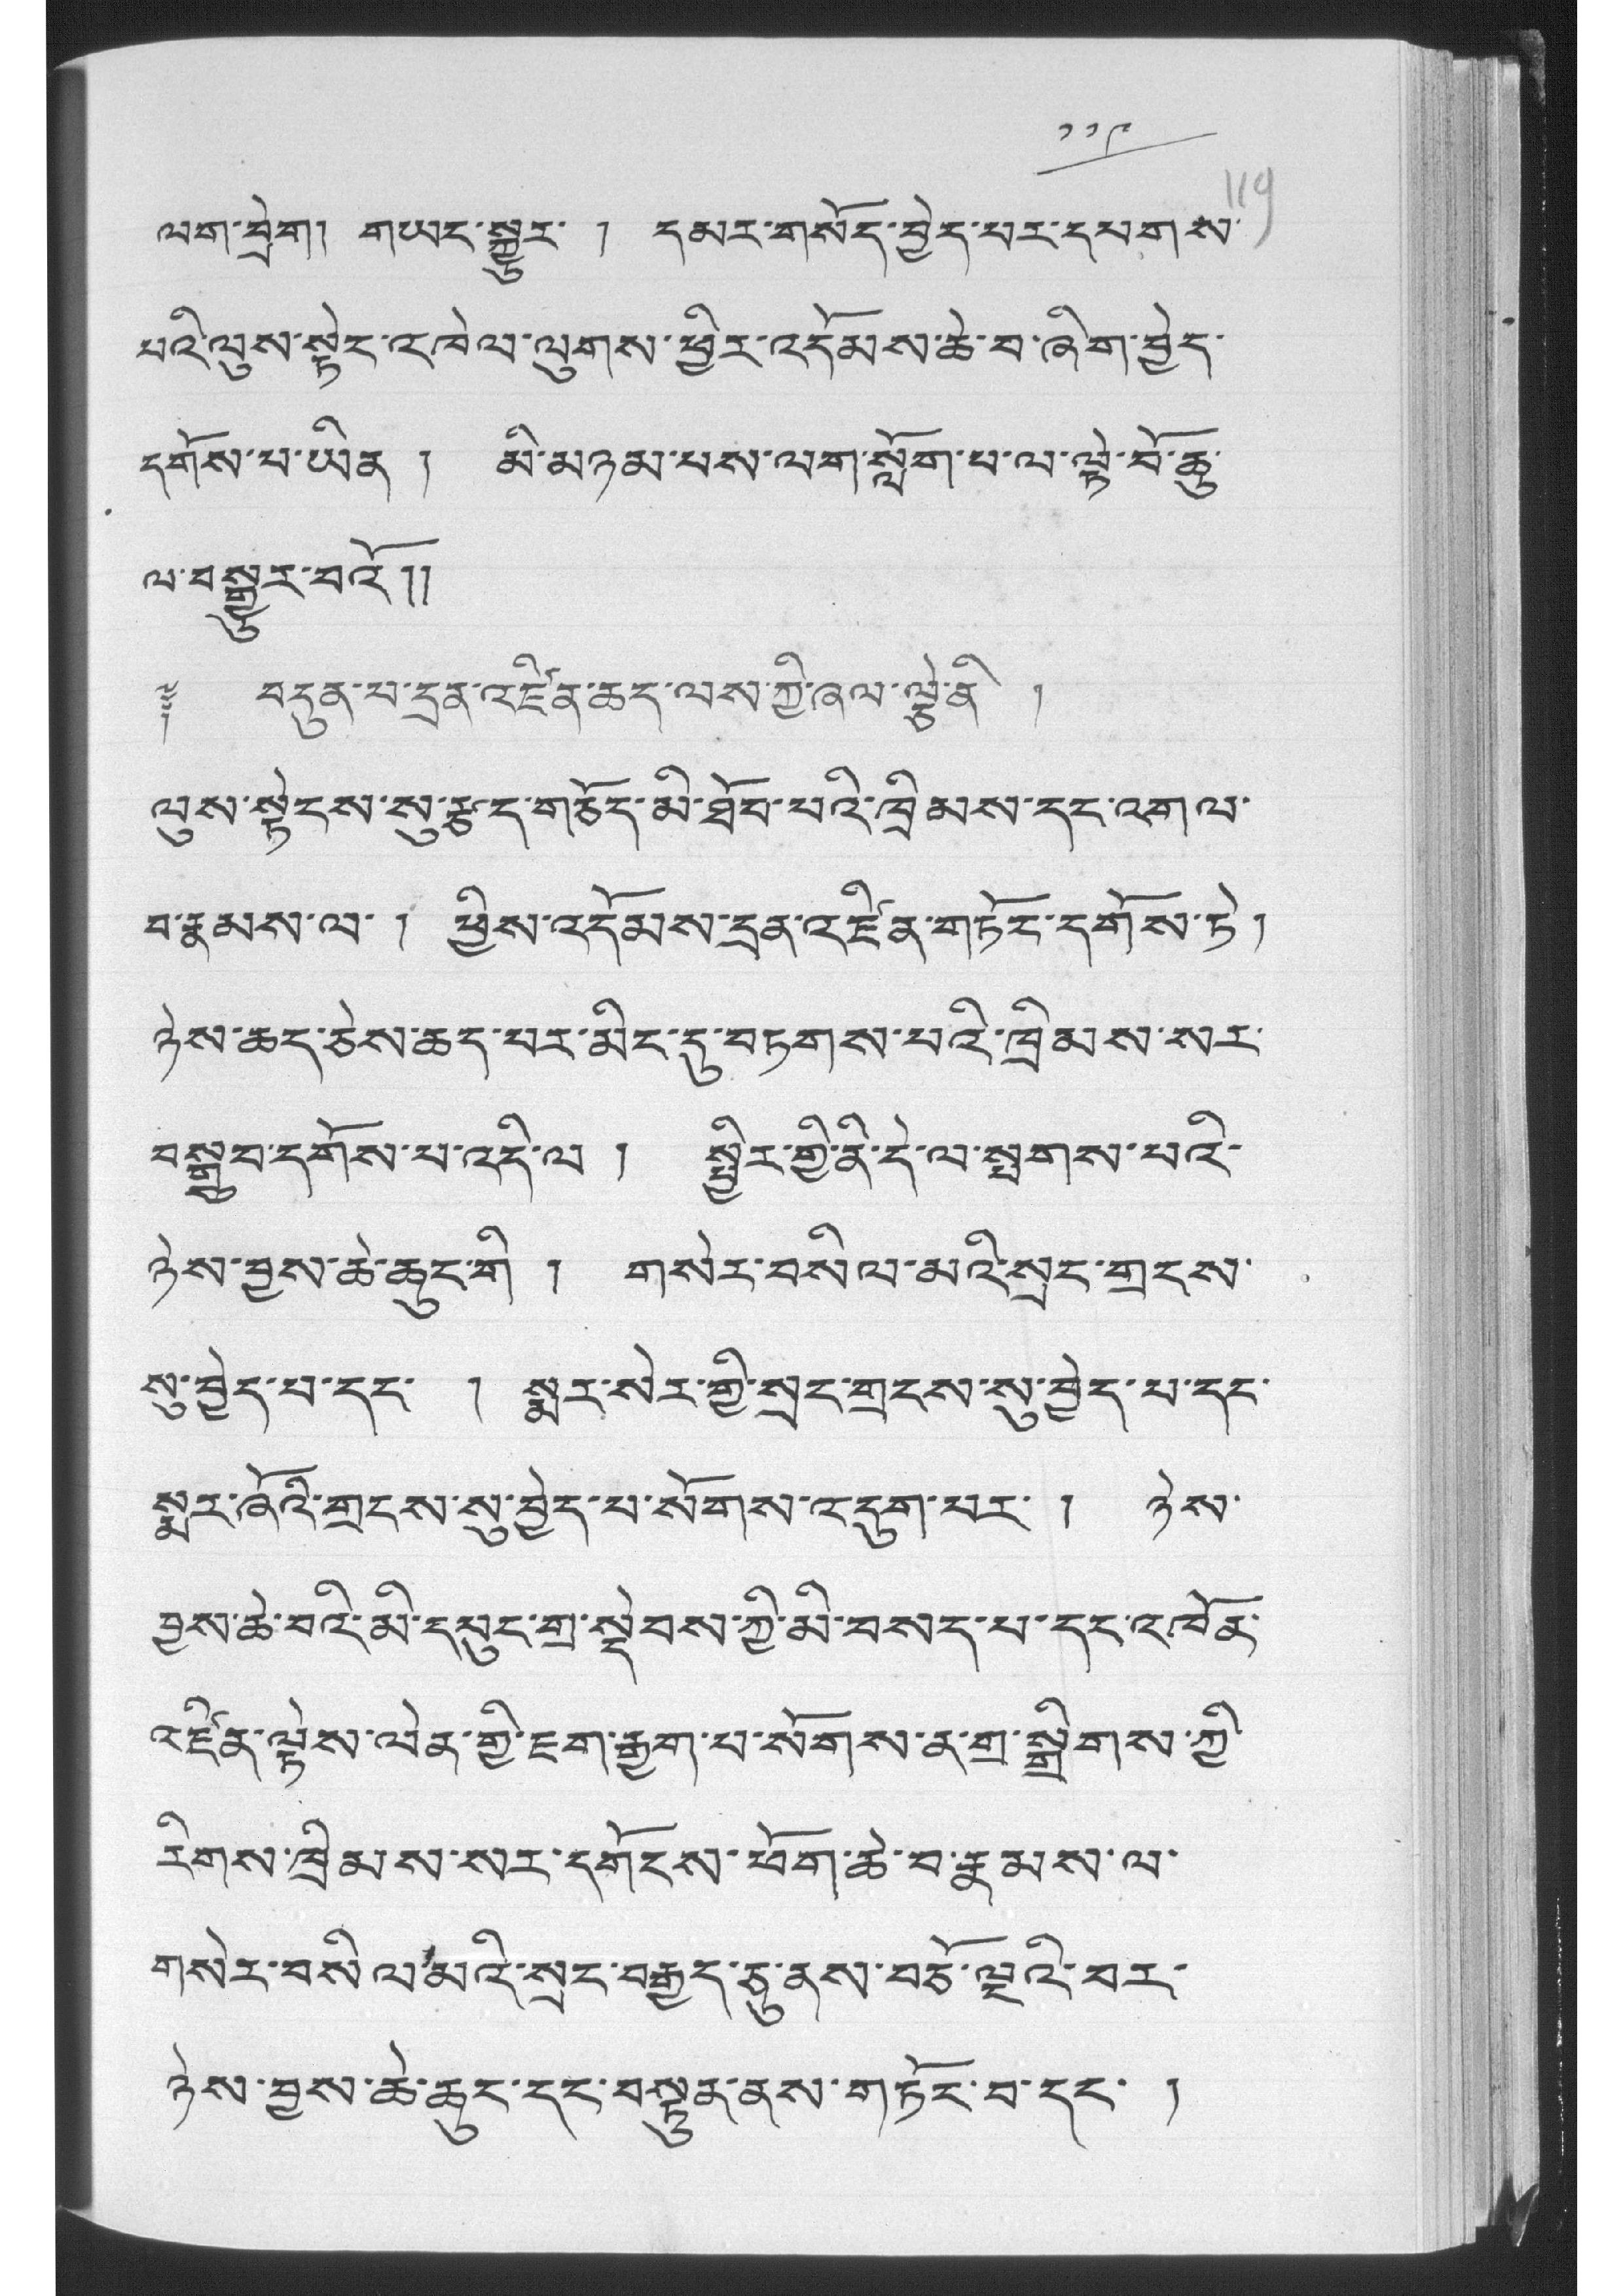༡༡༩
ལག་བྲེག། གཡང་སྒྱུར་ ། དམར་གསོད་བྱེད་པར་དཔགས་
པའི་ལུས་སྟེང་འཁེལ་ལུགས་ཕྱིར་འདོམས་ཆེ་བ་ཞིག་བྱེད་
དགོས་པ་ཡིན ། མི་མཉམ་པས་ལག་སློག་པ་ལ་ལྟེ་བོ་ཆུ་
ལ་བསྒྱུར་བའོ།།
༈ བདུན་པ་དྲན་འཛིན་ཆད་ལས་ཀྱི་ཞལ་ལྕེ་ནི །
ལུས་སྟེངས་སུ་རྩད་གཅོད་མི་ཐོབ་པའི་ཁྲིམས་དང་འགལ་
བ་རྣམས་ལ་ ། ཕྱིས་འདོམས་དྲན་འཛིན་གཏོར་དགོས་ཏེ །
ཉེས་ཆད་ཅེས་ཆད་བར་མིང་དུ་བཏགས་པའི་ཁྲིམས་སར་
བསྒྲུབ་དགོས་པ་འདི་ལ ། སྤྱིར་གྱི་ནི་དེ་ལ་སྤགས་པའི་
ཉེས་བྱས་ཆེ་ཆུང་གི ། གསེར་བསིལ་མའི་སྲང་གྲངས་
སུ་བྱེད་པ་དང་ ། སྨར་སེར་གྱི་སྲང་གྲངས་སུ་བྱེད་པ་དང་
སྨར་ཞོའི་གྲངས་སུ་བྱེད་པ་སོགས་འདུག་པར་ ། ཉེས་
བྱས་ཆེ་བའི་མི་དཔུང་གྲ་སྡེབས་ཀྱི་མི་བསད་པ་དང་འཁོན་
འཛིན་ལྟེས་ལེན་གྱི་ཇག་རྒྱག་པ་སོགས་ན་གྲ་སྒྲིགས་ཀྱི་
རིགས་ཁྲིམས་སར་དགོངས་ཕོག་ཆེ་བ་རྣམས་ལ་
གསེར་བསིལ་མའི་སྲང་བརྒྱད་ཅུ་ནས་བཅོ་ལྔའི་བར་
ཉེས་བྱས་ཆེ་ཆུང་དང་བསྟུན་ནས་གཏོང་བ་དང་ །
